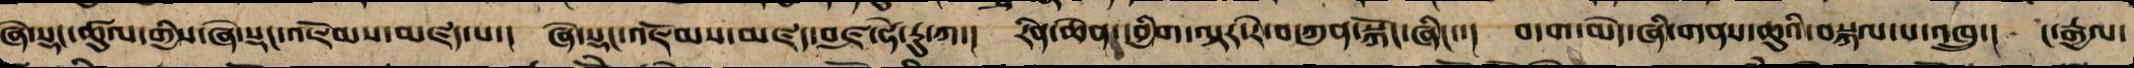ཞེ་སྡང་ཚུལ་གྱིས་ཞེ་སྡང་འཇོམས་མཛད་པ་། ཞེ་སྡང་འཇོམས་མཛད་བཛྲ་ཧེ་རུ་ཀ། རིན་ཆེན་དབྱིག་ལྟར་རེ་བ་ཀུན་སྐོང་ཞིང་་། བདག་མེད་ཞི་གནས་ཆུ་ཡི་བསྐལ་པས་འཁྲུ་། ང་རྒྱལ་
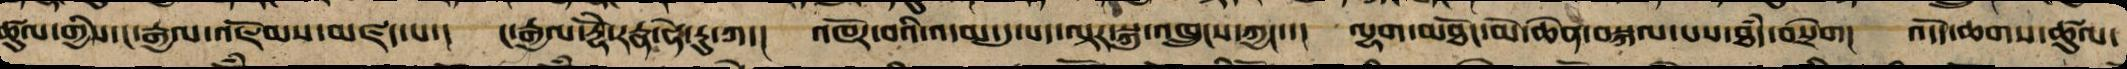ཚུལ་གྱིས་ང་རྒྱལ་འཇོམས་མཛད་པ་། །་རྒྱལ་རྡོེ་རཏྣ་ཧེ་རུ་ཀ། འཁོར་བའི་འདམ་དུ་པད་ལྟར་སྐུ་འཁྲུངས་ཀྱང་་། ལྷག་མཐོང་མེ་ཆེན་བསྐལ་པས་ཐཾད་བསྲེག། འདོད་ཆགས་ཚུལ་
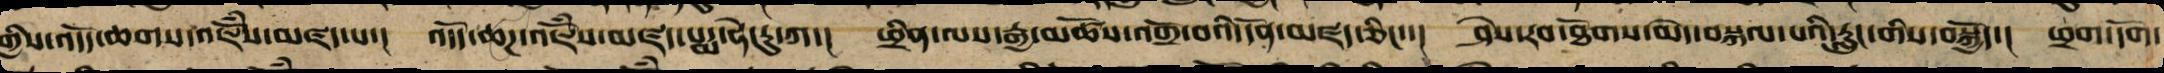གྱིས་འདོད་ཆགས་འཇོཾས་མཛད་པ་། འདོད་ཆཌ་འཇོཾས་མཛད་པདྨ་ཧེ་རུ་ཀ། ཕྲིན་ལས་རྒྱ་མཚོས་འགྲོ་བའི་དོན་མཛད་ཅིང་་། ཤེས་རབ་ཐོགས་མེད་བསྐལ་པའི་རླུང་གིས་བསྐྱོད་། ཕྲག་དོག་
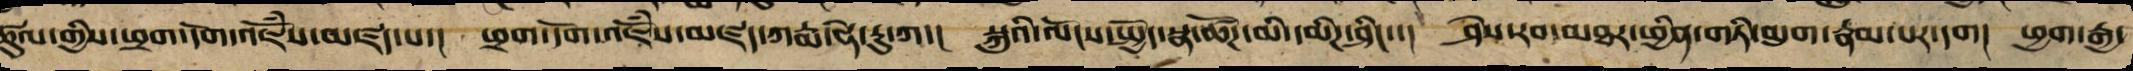ཚུལ་གྱིས་ཕྲག་དོག་འཇོཾས་མཛད་པ་། ཕྲག་དོག་འཇོཾས་མཛད་ཀརྨ་ཧེ་རུ་ཀ། སྐུའི་ལོངས་སྤྱོད་སྣ་ཚོཌ་མི་དམིཌ་ཤིང་་། ཤེས་རབ་མཐར་ཕྱིན་གཏི་མུག་རྣམ་པར་དག། ཕྱག་རྒྱ་
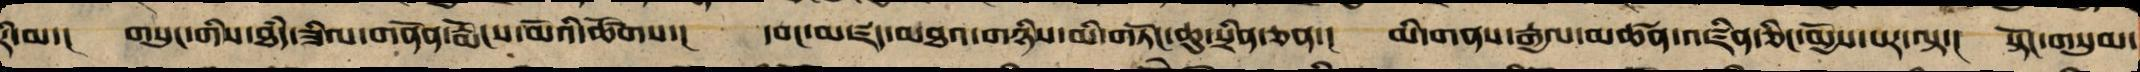རེ་མ་། གསུང་གིས་ཐཾད་ཟིལ་གནོན་རྨོངས་མོའི་ཚོགས་། དབང་མཛད་མཐའ་གཉིས་མི་གཏོང་ཆུ་སྲིན་ཅན་། མི་གནས་རྒྱལ་མཚན་འཛིན་ཅིང་མྱོས་པར་བལྟ་། སྟོང་གསུམ་
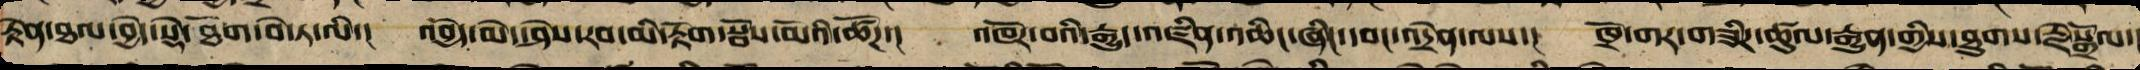རྟེན་ཐལ་བྱེད་སྟེ་ཐོག་བེ་ཏ་ལི་། འབྱེད་མེད་ཤེས་རབ་མི་རྟོག་སྦོས་མོའི་ཚོཌ་། འཁོར་བའི་རྒྱུད་འཛིན་འཆིང་ཞིང་དབང་འདྲེན་ལས་། ཁྲོ་གང་གཟིཌ་ཚུལ་རྒྱུན་གྱི་ཐུགས་རྗེས་སྒྲོལ་།
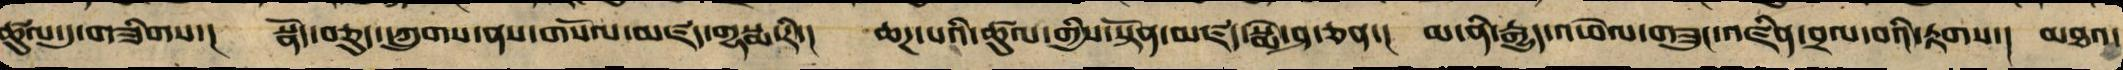ཚུལ་དུ་གཟིགས་། ཕྱོག་བཅུར་དཀྲུགས་ནས་གསོལ་མཛོད་གྷསྨ་རི་། ཆཌ་པའི་ཚུལ་གྱིས་དོན་མཛད་སྨེ་ཤ་ཅན་། མ་ནིང་རྒྱུད་འཕེལ་གཟུང་འཛིན་བྲལ་བའི་རྟགས་། མཐའ་
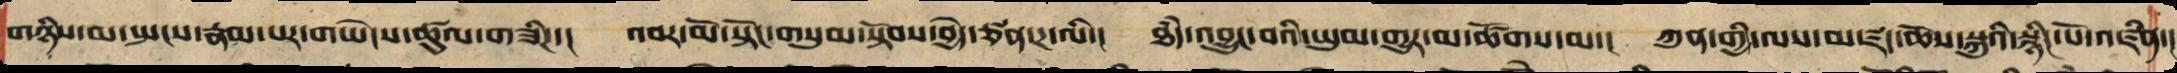གཉིས་མ་སྤངས་རྣམ་པར་གཡེངས་ཚུལ་གཟིཌ་།  འབར་མེ་སྟོང་གསུམ་སྟོབས་བྱེད་ཙན་ཌ་ལི་།  ཐཾད་འབྱུང་བའི་ཡུམ་གྱུར་མ་ཚོགས་མ་།  ཀུན་གྱི་ལས་མཛད་ཆོས་སྐུའི་སྙིང་པོ་འཛིན་།
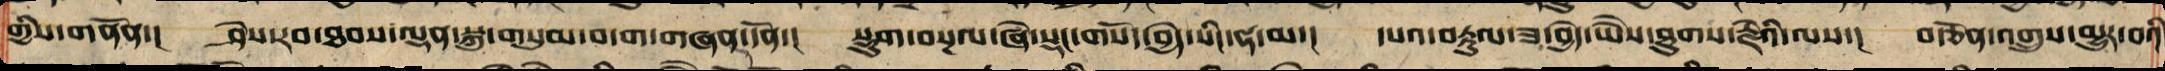གྱིས་གནོན་།  ཤེས་རབ་ཐབས་ལྡན་སྐུ་གསུམ་བདག་གཞན་དོན་། སྡུག་བསྔལ་ཞེ་སྡང་གསོད་བྱེད་སིང་ཧ་མ་་། དཔའ་བརྟུལ་ཟ་བྱེད་ཡཻས་ཐུགས་རྗེའི་ལས་།  བརྩོན་འགྲུས་མྱུར་བའི་
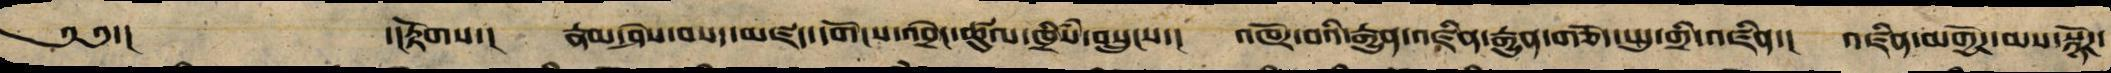༄༅་།  ་།རྟོགས་། རྣམ་ཤེས་གསད་མཛད་དགོངས་འབྲེང་ཚུལ་ཁྲིཾས་བསྲུངས་། འཁོར་བའི་རྒྱུད་འཛིན་རྒྱུན་གཅོད་སྤུ་གྲི་འཛིན་། འཛིན་མགྱོཌ་མས་སྙོཌ་
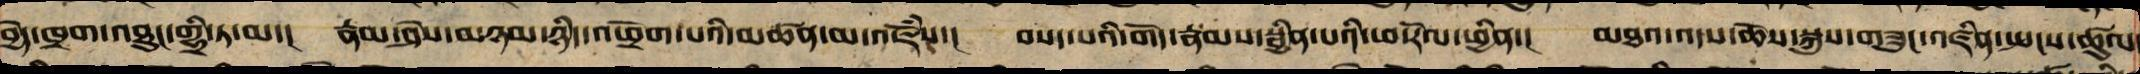བྱེད་ཁྲག་འཐུང་གྷྲི་ཏ་མ་། རྣམ་ཤེས་མཉམ་ཉིད་ཡིད་འཕྲོག་པའི་མཚན་མ་འཇོཾས་། བསད་པའི་གོད་རྣམས་སྦྱིན་པའི་ཕ་རོལ་ཕྱིན་། མཐའ་འདས་ཆོས་སྐུས་གཟུང་འཛིན་སྤངས་ཚུལ
